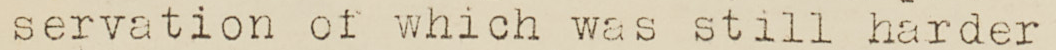servation of which was still harder
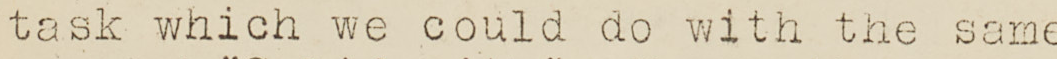task which we could do with the same
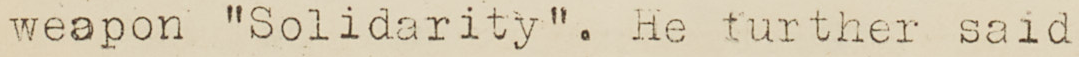weapon "Solidarity. He further said
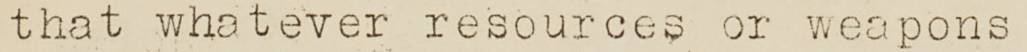that whatever resources or weapons
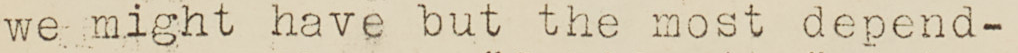we might have but the most depend-
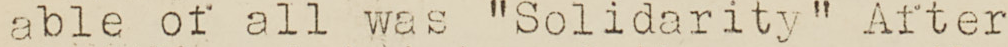able of all was "Solidarity After
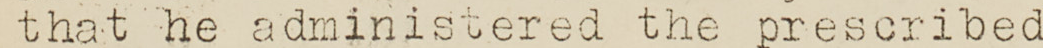that he administered the prescribed
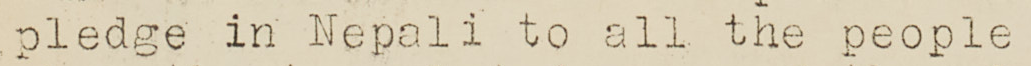pledge in Nepali to all the people
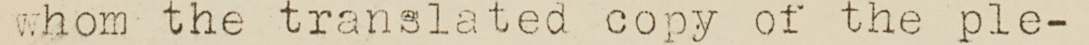whom the translated copy of the ple-
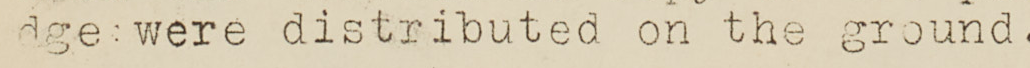dge were distributed on the ground.
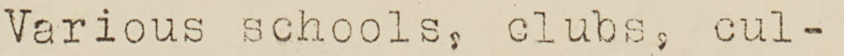Various schools, clubs, cul-
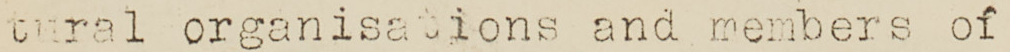tural organisations and members of
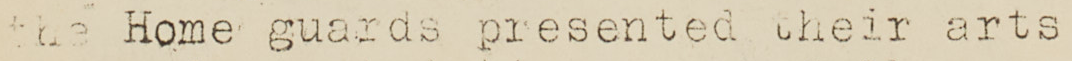the Home guards presented their arts
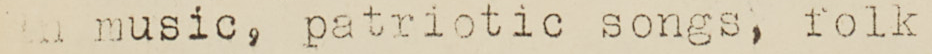in music, patriotic songs, folk
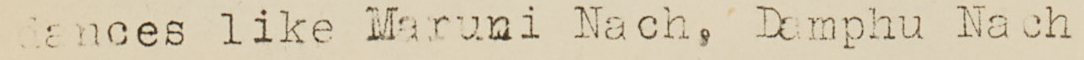dances like Maruni Nach, Damphu Nach
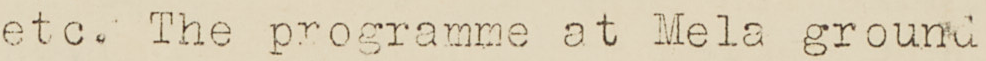etc. The programme at Mela ground
